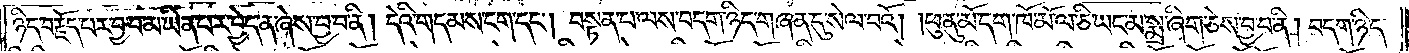ཉིད་བརྗོད་པར་བྱ་བ་མ་ཡིན་པར་བྱེད་ན་ཞེས་བྱ་བ་ནི། དེའི་གདམས་ངག་དང༌། བསྟན་པ་ལས་བདག་ཉིད་གཞན་དུ་སེལ་བའོ། །ཕུ་ནུ་མོ་དག་ཁོ་མོ་ལ་ཅི་ཡང་མ་སྨྲ་ཞིག་ཅེས་བྱ་བ་ནི། བདག་ཉིད་
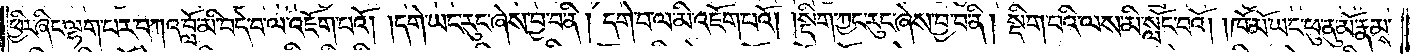ཕྱིར་ཞིང་ལྷག་པར་བཀའ་བློ་མི་བདེ་བ་ལ་འཇོག་པའོ། །དགེ་ཡང་རུང་ཞེས་བྱ་བ་ནི། དགེ་བ་ལ་མི་འཇོག་པའོ། །སྡིག་ཀྱང་རུང་ཞེས་བྱ་བ་ནི། སྡིག་པའི་ལས་མི་སློང་བའོ། །ཁོ་མོ་ཡང་ཕུ་ནུ་མོ་རྣམས་
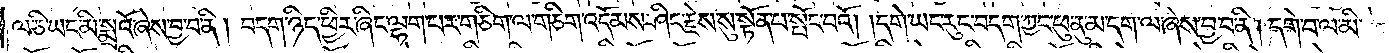ལ་ཅི་ཡང་མི་སྨྲའོ་ཞེས་བྱ་བ་ནི། བདག་ཉིད་ཕྱིར་ཞིང་ལྷག་པར་གཅིག་ལ་གཅིག་འདོམས་ཤིང་རྗེས་སུ་སྟོན་པ་སྤོང་བའོ། །དགེ་ཡང་རུང་བདག་ཀྱང་ཕུ་ནུ་མ་དག་ལ་ཞེས་བྱ་བ་ནི། དགེ་བ་ལ་མི་
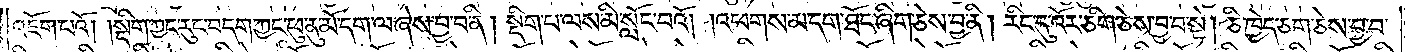འཇོག་པའོ། །སྡིག་ཀྱང་རུང་བདག་ཀྱང་ཕུ་ནུ་མོ་དག་ལ་ཞེས་བྱ་བ་ནི། སྡིག་པ་ལས་མི་སློང་བའོ། །འཕགས་མ་དག་ཐོང་ཞིག་ཅེས་བྱ་ནི། རིང་དུ་འོར་ཅིག་ཅེས་བྱ་བ་སྟེ། ཅི་ཁྱེད་ཅག་ཅེས་བྱ་བ་
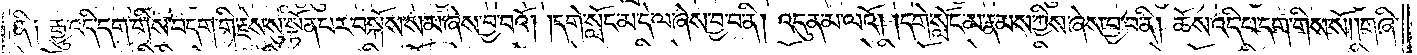ནི༑ རྒྱུ་འདི་དག་གིས་བདག་གི་རྗེས་སུ་སྟོན་པར་བསྐོས་སམ་ཞེས་བྱ་བའོ། །དགེ་སློང་མ་དེ་ལ་ཞེས་བྱ་བ་ནི། འདུན་མ་ལའོ། །དགེ་སློང་མ་རྣམས་ཀྱིས་ཞེས་བྱ་བ་ནི། ཆོས་འདི་པ་དག་གིས་སོ། །གཞི་
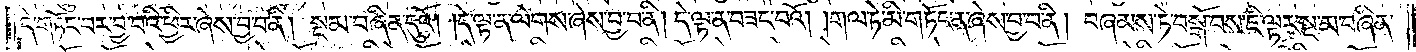དེ་གཏོང་བར་བྱ་བའི་ཕྱིར་ཞེས་བྱ་བ་ནི། སྔ་མ་བཞིན་དུའོ། །དེ་ལྟ་ན་ལེགས་ཞེས་བྱ་བ་ནི། དེ་ལྟ་ན་བཟང་བའོ། །གལ་ཏེ་མི་གཏོང་ན་ཞེས་བྱ་བ་ནི། བཞམས་ཏེ་བསྒོ་བས་ཇི་ལྟར་སྔ་མ་བཞིན་
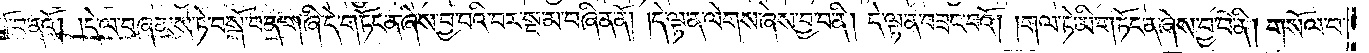དུ་བསྒོ་བ་ནའོ། །དེ་ལ་བཞམས་ཏེ་བསྒོ་བ་ན་གཞི་དེ་གཏོང་ན་ཞེས་བྱ་བའི་བར་སྔ་མ་བཞིན་ནོ། །དེ་ལྟ་ན་ལེགས་ཞེས་བྱ་བ་ནི། དེ་ལྟ་ན་བཟང་བའོ། །གལ་ཏེ་མི་གཏོང་ན་ཞེས་བྱ་བ་ནི། གསོལ་བ་
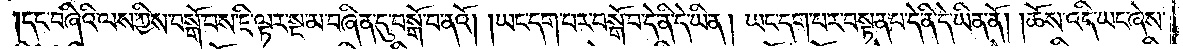དང་བཞིའི་ལས་ཀྱིས་བསྒོ་བས་ཇི་ལྟར་སྔ་མ་བཞིན་དུ་བསྒོ་བ་ནའོ། །ཡང་དག་པར་བསྒོ་བ་དེ་ནི་དེ་ཡིན། ཡང་དག་པར་བསྟན་པ་དེ་ནི་དེ་ཡིན་ནོ། །ཆོས་འདི་ཡང་ཞེས་
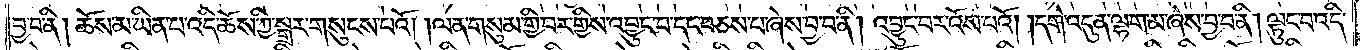བྱ་བ་ནི། ཆོས་མ་ཡིན་པ་འདི་ཆོས་ཀྱི་སྒྲར་གསུངས་པའོ། །ལན་གསུམ་གྱི་བར་གྱིས་འབྱུང་བ་དང་བཅས་པ་ཞེས་བྱ་བ་ནི། འབྱུང་བར་འོས་པའོ། །དགེ་འདུན་ལྷག་མ་ཞེས་བྱ་བ་ནི། ལྟུང་བ་འདི་
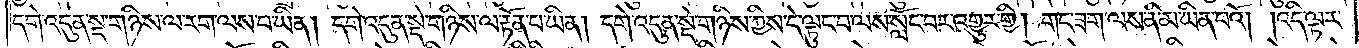དགེ་འདུན་སྔ་གཉིས་ལ་རག་ལས་པ་ཡིན། དགེ་འདུན་སྡེ་གཉིས་ལ་རྟོན་པ་ཡིན། དགེ་འདུན་སྡེ་གཉིས་ཀྱིས་དེ་ལྟུང་བ་ལས་སློང་བར་འགྱུར་གྱི། གང་ཟག་ལས་ནི་མ་ཡིན་པའོ། །འདི་ལྟར་
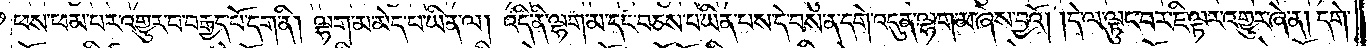ཕས་ཕམ་པར་འགྱུར་བ་བརྒྱད་པོ་དག་ནི། ལྷག་མ་མེད་པ་ཡིན་ལ། འདི་ནི་ལྷག་མ་དང་བཅས་པ་ཡིན་པས་དེ་བས་ན་དགེ་འདུན་ལྷག་མ་ཞེས་བྱའོ། །དེ་ལ་ལྟུང་བར་ཇི་ལྟར་འགྱུར་ཞེ་ན། དགེ་
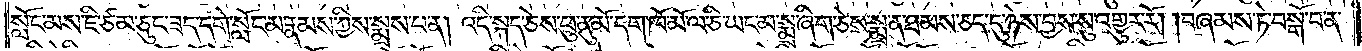སློང་མས་ཇི་ཙམ་ཅུང་ཟད་དགེ་སློང་མ་རྣམས་ཀྱིས་སྨྲས་པ་ན། འདི་སྐད་ཅེས་ཕུ་ནུ་མོ་དག་ཁོ་མོ་ལ་ཅི་ཡང་མ་སྨྲ་ཞིག་ཅེས་སྨྲ་ན་ཐམས་ཅད་དུ་ཉེས་བྱས་སུ་འགྱུར་རོ། །བཞམས་ཏེ་བསྒོ་བ་ན་
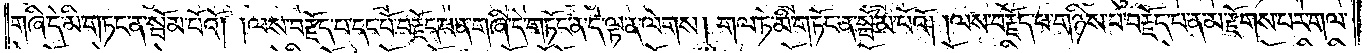གཞི་དེ་མི་གཏང་ན་སྦོམ་པོའོ། །ལས་བརྗོད་པ་དང་པོ་བརྗོད་པ་ན་གཞི་དེ་གཏོང་ན་དེ་ལྟ་ན་ལེགས། གལ་ཏེ་མི་གཏོང་ན་སྦོམ་པོའོ། །ལས་བརྗོད་པ་གཉིས་པ་བརྗོད་པ་ན་མ་རྫོགས་པར་གལ་
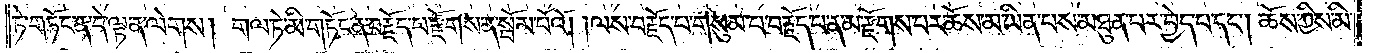ཏེ་གཏོང་ན་དེ་ལྟ་ན་ལེགས། གལ་ཏེ་མི་གཏོང་ན་བརྗོད་པ་རྫོགས་ན་སྦོམ་པོའོ། །ལས་བརྗོད་པ་གསུམ་པ་བརྗོད་པ་ན་མ་རྫོགས་པར་ཆོས་མ་ཡིན་པས་མཐུན་པར་བྱེད་པ་དང༌། ཆོས་ཀྱིས་མི་
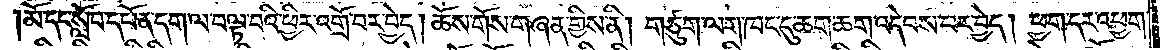མོ་དང་སློབ་དཔོན་དག་ལ་བལྟ་བའི་ཕྱིར་འགྲོ་བར་བྱེད། ཆོས་གོས་གཞན་གྱིས་ནི། གཙུག་ལག་ཁང་དུ་ཆག་ཆག་འདེབས་པར་བྱེད། ཕྱག་དར་འཕྱག་
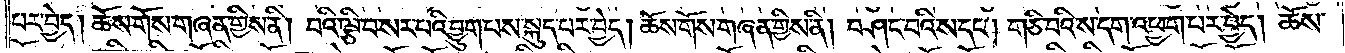པར་བྱེད། ཆོས་གོས་གཞན་གྱིས་ནི། བའི་ལྕི་བ་སར་པའི་བྱུག་པས་སྐུད་པར་བྱེད། ཆོས་གོས་གཞན་གྱིས་ནི། བཤང་བའི་ས་དང༌། གཅི་བའི་ས་དག་འཕྱག་པར་བྱེད། ཆོས་
